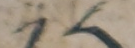༡༨
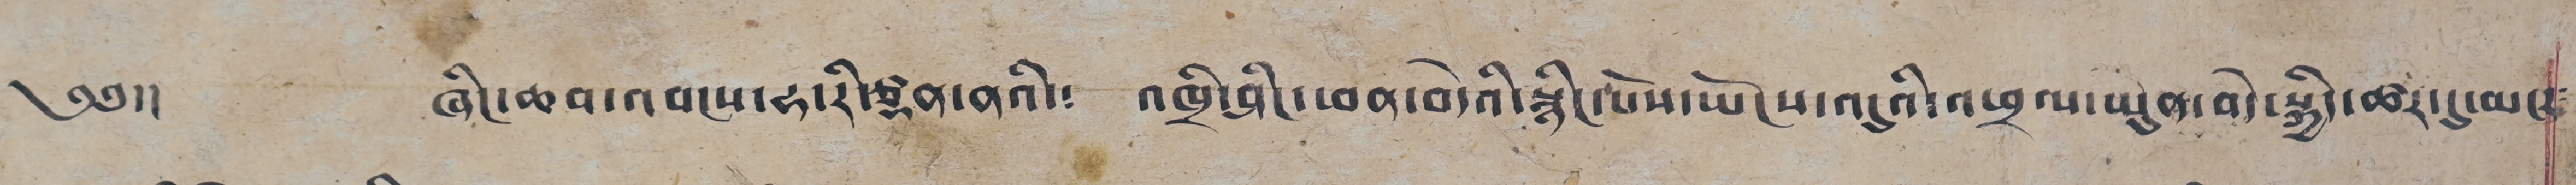༄༅།། ཞིང་ཆབ་འབངས་ཧ་རི་ཙདན་ནའི་༴ འཁྲི་ཤིང་ཕན་བདེའི་སྙིང་སོས་ཡོངས་འདུའི་འཕྲལ་ཡུན་བདེ་སྐྱིད་ཚར་དུ་མངར༴
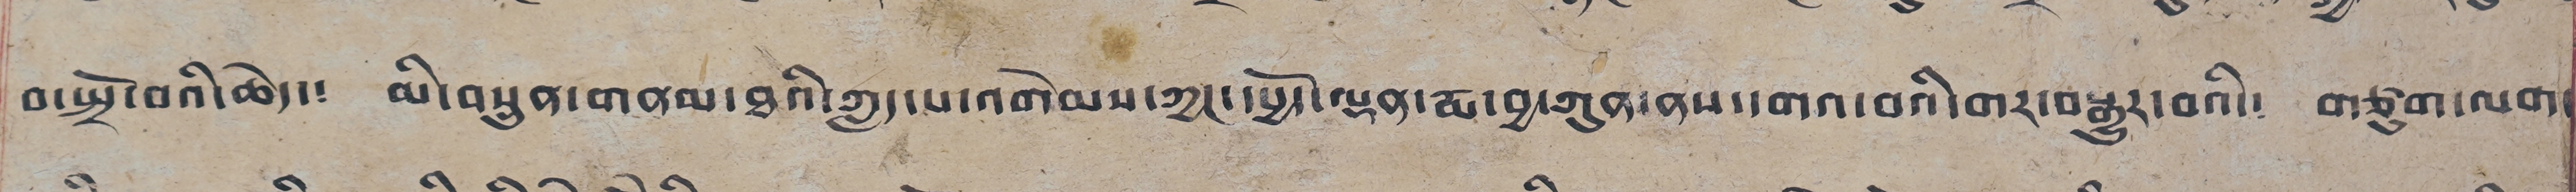བ་སྤྲོ་བའི་ཆེད་༴ མི་བསྲུན་གནམ་ཐའི་ཀླད་པ་འགེམས་ཀྱང་དཔྱོད་ལྡན་རྨ་བྱ་ཀུན་ནས་དགའ་བའི་གར་བསྒྱུར་བའི་༴ གཙུག་ལག་
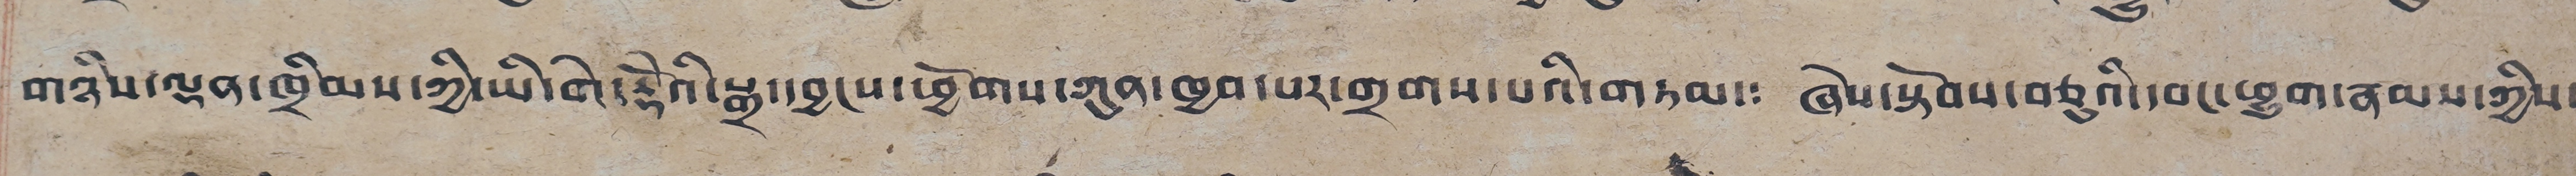གཉིས་ལྡན་ཁྲིམས་ཀྱི་ཡི་གེ་རྡོའི་སྒྲ་བྱངས་ཕྱོགས་ཀུན་ཁྱབ་པར་གྲགས་པའི་གཏམ་༴ ཞེས་སྟོབས་བཅུའི་དབང་ཕྱུག་རྣམས་ཀྱིས་
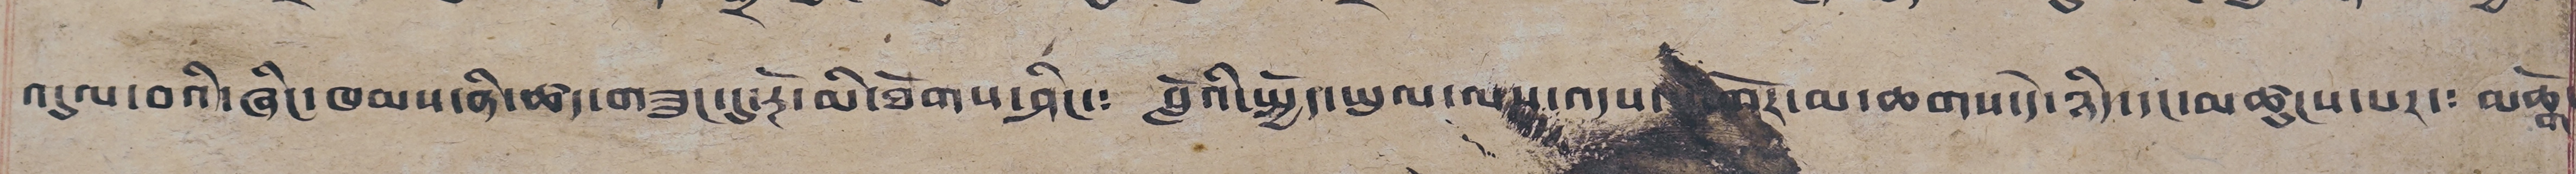འདུལ་བའི་ཞིང་ཁམས་ནི་ཚད་གཟུང་དུ་རྔོ་མི་ཐོགས་ཤིང་༴ བློའི་སྤྱོད་ཡུལ་ལས་འདས་ཤོར་མ་ཆགས་དེ་ཉིད་དང་མཚུངས་པར་༴ མཆོག་
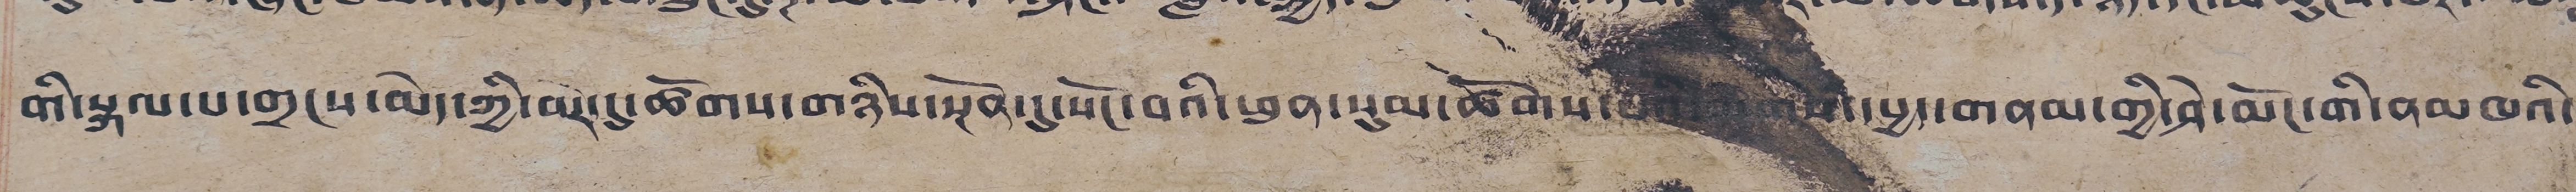གི་སྐལ་པ་གྲངས་མེད་ཀྱི་བར་དུ་ཚོགས་གཉིས་སྔོན་དུ་སོང་བའི་ཕུན་སུམ་ཚོགས་྾྾྾་དཔྱད་གནམ་གྱི་ཤེ་མོང་གི་ནམཁའི་
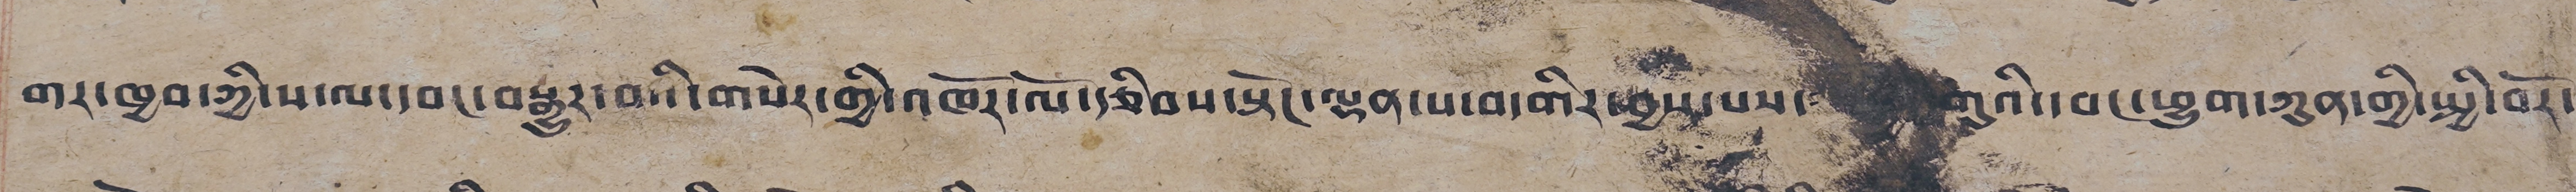གར་ཁྱབ་ཀྱི་ས་ལ་དབང་བསྒྱུར་བའི་གསེར་གྱི་འཁོར་ལོ་རྩིབས་སྟོང་ལྡན་པ་བདགིར་བྱས་པས་ xxx གའི་དབང་ཕྱུག་ཀུན་གྱི་སྤྱི་བོར་
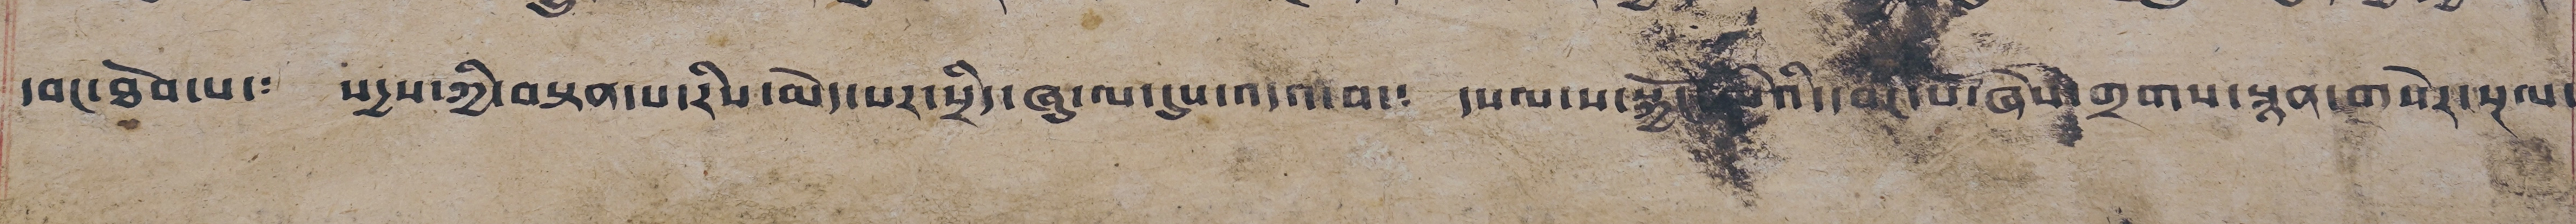དབང་ཐོབ་པ་༴ སདྱས་ཀྱི་བསྟན་པ་རིས་མེད་པར་སྲིད་ཞུ་ལ་དུས་འདའ་བ་༴ དཔལ་པ་སྐྱོང་xxxའི་དབང་པོ་ཞེས་གྲགས་སྙན་གསེར་སྔལ་
